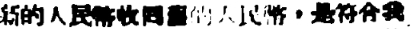新的人民幣收囘舊的人民幣，是符合我
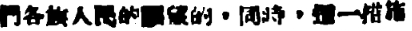們各族人民的願望的，同時，這一措施
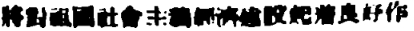將對祖國社會主義經濟建設起着良好作
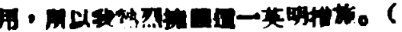用，所以我熱烈擁護這一英明措施。（
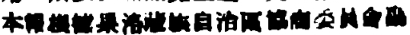本報根據果洛藏族自治區協商委員會副
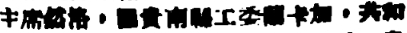主席然洛，團貴南縣工委蘭卡加，共和
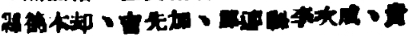縣德木却、吉先加、祁連縣李次成、貴
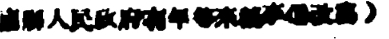南縣人民政府有年等來稿來信改寫）
